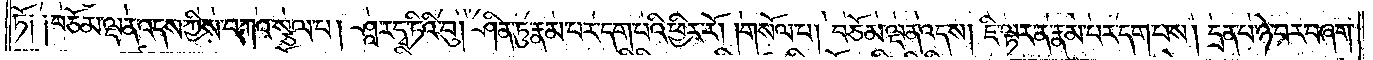ཏོ༑ ༑བཅོམ་ལྡན་འདས་ཀྱིས་བཀའ་སྩལ་པ། ཤཱ་ར་དྭ་ཏིའི་བུ། ཤིན་ཏུ་རྣམ་པར་དག་པའི་ཕྱིར་རོ། །གསོལ་པ། བཅོམ་ལྡན་འདས། ཇི་ལྟར་ན་རྣམ་པར་དག་པས། དྲན་པ་ཉེ་བར་བཞག་
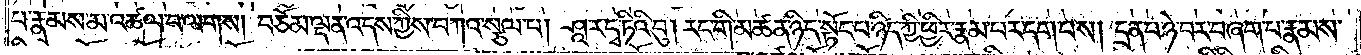པ་རྣམས་མ་འཚལ་བ་ལགས། བཅོམ་ལྡན་འདས་ཀྱིས་བཀའ་སྩལ་པ། ཤཱ་ར་དྭ་ཏིའི་བུ། རང་གི་མཚན་ཉིད་སྟོང་པ་ཉིད་ཀྱི་ཕྱིར་རྣམ་པར་དག་པས། དྲན་པ་ཉེ་བར་བཞག་པ་རྣམས་
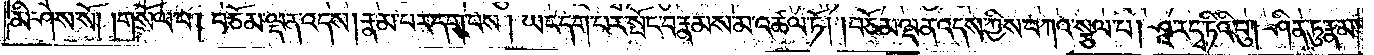མི་ཤེས་སོ། །གསོལ་པ། བཅོམ་ལྡན་འདས། རྣམ་པར་དག་པས། ཡང་དག་པར་སྤོང་བ་རྣམས་མ་འཚལ་ཏོ། །བཅོམ་ལྡན་འདས་ཀྱིས་བཀའ་སྩལ་པ། ཤཱ་ར་དྭ་ཏིའི་བུ། ཤིན་ཏུ་རྣམ་
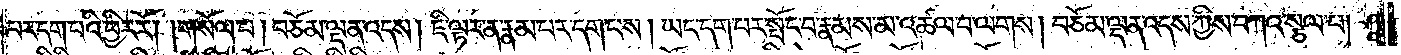པར་དག་པའི་ཕྱིར་རོ། །གསོལ་པ། བཅོམ་ལྡན་འདས། ཇི་ལྟར་ན་རྣམ་པར་དག་པས། ཡང་དག་པར་སྤོང་བ་རྣམས་མ་འཚལ་བ་ལགས། བཅོམ་ལྡན་འདས་ཀྱིས་བཀའ་སྩལ་པ། ཤཱ་
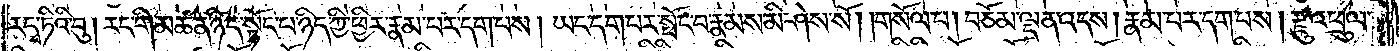ར་དྭ་ཏིའི་བུ། རང་གི་མཚན་ཉིད་ཀྱི་སྟོང་པ་ཉིད་ཀྱི་ཕྱིར་རྣམ་པར་དག་པས། ཡང་དག་པར་སྤོང་བ་རྣམས་མི་ཤེས་སོ། །གསོལ་པ། བཅོམ་ལྡན་འདས། རྣམ་པར་དག་པས། རྫུ་འཕྲུལ་
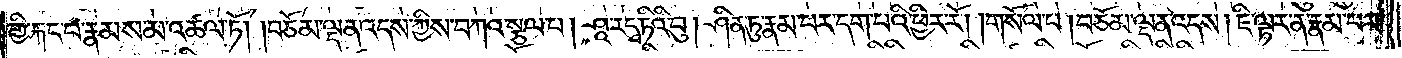གྱི་རྐང་པ་རྣམས་མ་འཚལ་ཏོ། །བཅོམ་ལྡན་འདས་ཀྱིས་བཀའ་སྩལ་པ། ཤཱ་ར་དྭ་ཏིའི་བུ། ཤིན་ཏུ་རྣམ་པར་དག་པའི་ཕྱིར་རོ། །གསོལ་པ། བཅོམ་ལྡན་འདས། ཇི་ལྟར་ན་རྣམ་པར་
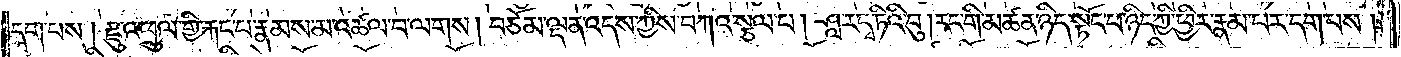དག་པས། རྫུ་འཕྲུལ་གྱི་རྐང་པ་རྣམས་མ་འཚལ་བ་ལགས། བཅོམ་ལྡན་འདས་ཀྱིས་བཀའ་སྩལ་པ། ཤཱ་ར་དྭ་ཏིའི་བུ། རང་གི་མཚན་ཉིད་སྟོང་པ་ཉིད་ཀྱི་ཕྱིར་རྣམ་པར་དག་པས།
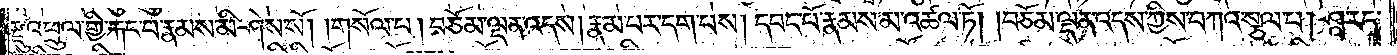རྫུ་འཕྲུལ་གྱི་རྐང་པ་རྣམས་མི་ཤེས་སོ། །གསོལ་པ། བཅོམ་ལྡན་འདས། རྣམ་པར་དག་པས། དབང་པོ་རྣམས་མ་འཚལ་ཏོ། །བཅོམ་ལྡན་འདས་ཀྱིས་བཀའ་སྩལ་པ། ཤཱ་ར་དྭ་
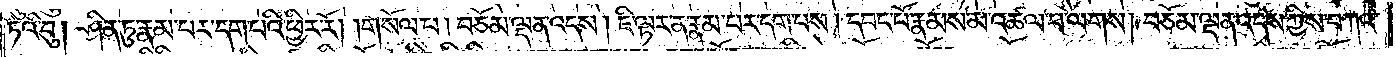ཏིའི་བུ། ཤིན་ཏུ་རྣམ་པར་དག་པའི་ཕྱིར་རོ། །གསོལ་པ། བཅོམ་ལྡན་འདས། ཇི་ལྟར་ན་རྣམ་པར་དག་པས། དབང་པོ་རྣམས་མ་འཚལ་བ་ལགས། བཅོམ་ལྡན་འདས་ཀྱིས་བཀའ་
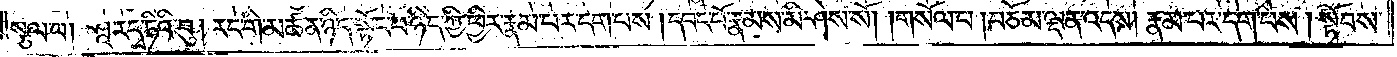སྩལ་པ། ཤཱ་ར་དྭ་ཏིའི་བུ། རང་གི་མཚན་ཉིད་སྟོང་པ་ཉིད་ཀྱི་ཕྱིར་རྣམ་པར་དག་པས། དབང་པོ་རྣམས་མི་ཤེས་སོ། །གསོལ་པ། བཅོམ་ལྡན་འདས། རྣམ་པར་དག་པས། སྟོབས་
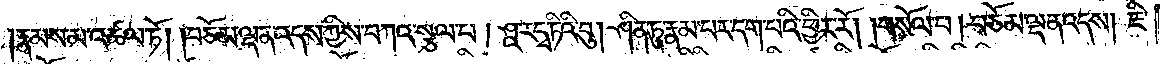རྣམས་མ་འཚལ་ཏོ། །བཅོམ་ལྡན་འདས་ཀྱིས་བཀའ་སྩལ་པ། ཤཱ་ར་དྭ་ཏིའི་བུ། ཤིན་ཏུ་རྣམ་པར་དག་པའི་ཕྱིར་རོ། །གསོལ་པ། བཅོམ་ལྡན་འདས། ཇི་
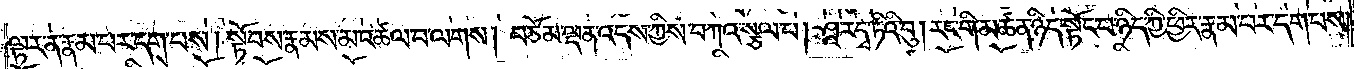ལྟར་ན་རྣམ་པར་དག་པས། སྟོབས་རྣམས་མ་འཚལ་བ་ལགས། བཅོམ་ལྡན་འདས་ཀྱིས་བཀའ་སྩལ་པ། ཤཱ་ར་དྭ་ཏིའི་བུ། རང་གི་མཚན་ཉིད་སྟོང་པ་ཉིད་ཀྱི་ཕྱིར་རྣམ་པར་དག་པས།
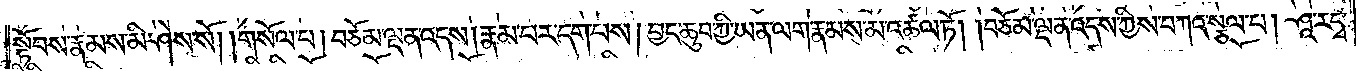སྟོབས་རྣམས་མི་ཤེས་སོ། །གསོལ་པ། བཅོམ་ལྡན་འདས། རྣམ་པར་དག་པས། བྱང་ཆུབ་ཀྱི་ཡན་ལག་རྣམས་མ་འཚལ་ཏོ། །བཅོམ་ལྡན་འདས་ཀྱིས་བཀའ་སྩལ་པ། ཤཱ་ར་དྭ་
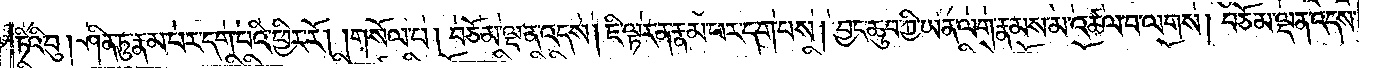ཏིའི་བུ། ཤིན་ཏུ་རྣམ་པར་དག་པའི་ཕྱིར་རོ། །གསོལ་པ། བཅོམ་ལྡན་འདས། ཇི་ལྟར་ན་རྣམ་པར་དག་པས། བྱང་ཆུབ་ཀྱི་ཡན་ལག་རྣམས་མ་འཚལ་བ་ལགས། བཅོམ་ལྡན་འདས་
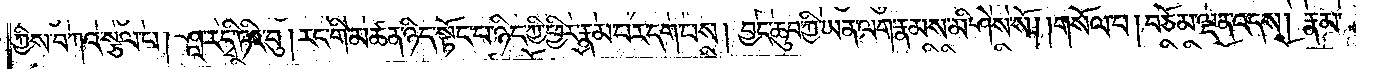ཀྱིས་བཀའ་སྩལ་པ། ཤཱ་ར་དྭ་ཏིའི་བུ། རང་གི་མཚན་ཉིད་སྟོང་པ་ཉིད་ཀྱི་ཕྱིར་རྣམ་པར་དག་པས། བྱང་ཆུབ་ཀྱི་ཡན་ལག་རྣམས་མི་ཤེས་སོ། །གསོལ་པ། བཅོམ་ལྡན་འདས། རྣམ་
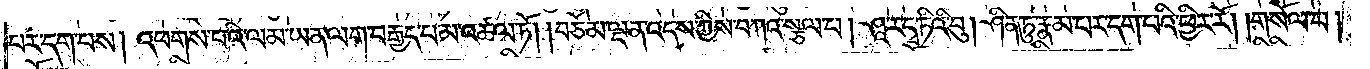པར་དག་པས། འཕགས་པའི་ལམ་ཡན་ལག་བརྒྱད་པ་མ་འཚལ་ཏོ། །བཅོམ་ལྡན་འདས་ཀྱིས་བཀའ་སྩལ་པ། ཤཱ་ར་དྭ་ཏིའི་བུ། ཤིན་ཏུ་རྣམ་པར་དག་པའི་ཕྱིར་རོ། །གསོལ་པ།
